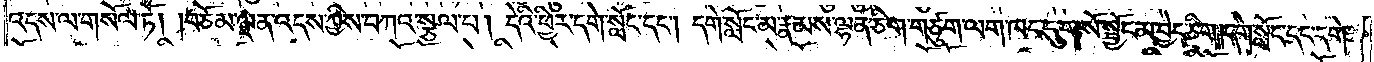འདས་ལ་གསོལ་ཏོ། །བཅོམ་ལྡན་འདས་ཀྱིས་བཀའ་སྩལ་པ། དེའི་ཕྱིར་དགེ་སློང་དང༌། དགེ་སློང་མ་རྣམས་ལྷན་ཅིག་གཙུག་ལག་ཁང་དུ་གསོ་སྦྱོང་མ་བྱེད་ཅིག །དགེ་སློང་དང་དགེ་
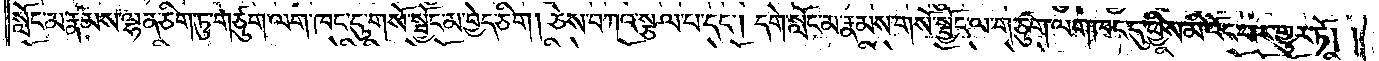སློང་མ་རྣམས་ལྷན་ཅིག་ཏུ་གཙུག་ལག་ཁང་དུ་གསོ་སྦྱོང་མ་བྱེད་ཅིག །ཅེས་བཀའ་སྩལ་པ་དང༌། དགེ་སློང་མ་རྣམས་གསོ་སྦྱོང་ལ་གཙུག་ལག་ཁང་དུ་ཕྱིས་མི་འོང་བར་གྱུར་ཏོ། །
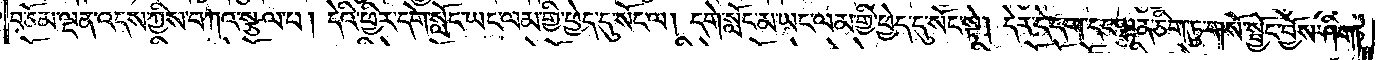བཅོམ་ལྡན་འདས་ཀྱིས་བཀའ་སྩལ་པ། དེའི་ཕྱིར་དགེ་སློང་ཡང་ལམ་གྱི་ཕྱེད་དུ་སོང་ལ། དགེ་སློང་མ་ཡང་ལམ་གྱི་ཕྱེད་དུ་སོང་སྟེ། དེར་དེ་དག་དང་ལྷན་ཅིག་ཏུ་གསོ་སྦྱོང་བྱོས་ཤིག །
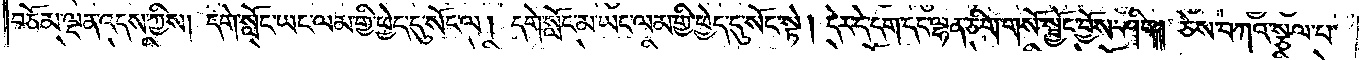བཅོམ་ལྡན་འདས་ཀྱིས། དགེ་སློང་ཡང་ལམ་གྱི་ཕྱེད་དུ་སོང་ལ། དགེ་སློང་མ་ཡང་ལམ་གྱི་ཕྱེད་དུ་སོང་སྟེ། དེར་དེ་དག་དང་ལྷན་ཅིག་གསོ་སྦྱོང་བྱོས་ཤིག །ཅེས་བཀའ་སྩལ་པ་
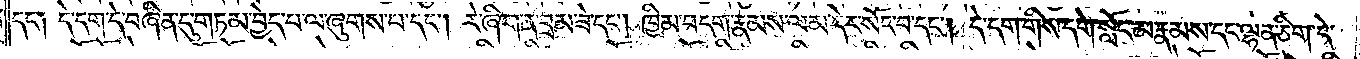དང༌། དེ་དག་དེ་བཞིན་དུ་གཏམ་བྱེད་པ་ལ་ཞུགས་པ་དང༌། རེ་ཞིག་ན་བྲམ་ཟེ་དང༌། ཁྱིམ་བདག་རྣམས་ལམ་དེར་སོང་བ་དང༌། དེ་དག་གིས་དགེ་སློང་མ་རྣམས་དང་ལྷན་ཅིག་དེ་
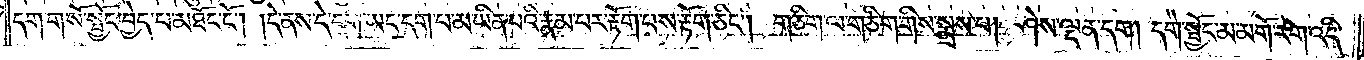དག་གསོ་སྦྱོང་བྱེད་པ་མཐོང་ངོ༌། །དེ་ནས་དེ་དག་ཡང་དག་པ་མ་ཡིན་པའི་རྣམ་པར་རྟོག་པས་རྟོག་ཅིང༌། གཅིག་ལ་གཅིག་གིས་སྨྲས་པ། ཤེས་ལྡན་དག། དགེ་སྦྱོང་མ་མགོ་རེག་འདི་
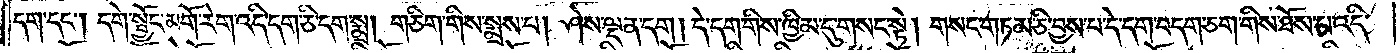དག་དང༌། དགེ་སྦྱོང་མགོ་རེག་འདི་དག་ཅི་དག་སྨྲ། གཅིག་གིས་སྨྲས་པ། ཤེས་ལྡན་དག །དེ་དག་གིས་ཁྱིམ་དུ་གསང་སྟེ། གསང་གཏམ་ཅི་བྱས་པ་དེ་དག་བདག་ཅག་གིས་ཐོས་པ་འདི་
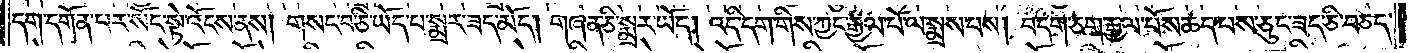དག་དགོན་པར་སོང་སྟེ་འོངས་ནས། གསང་བ་ཅི་ཡོད་པ་སྨྲར་ཟད་མོད། གཞན་ཅི་སྨྲར་ཡོད། འདི་དག་གིས་ཀྱང་རྒྱལ་པོ་ལ་སྨྲས་པས། བདག་ཅག་རྒྱལ་པོས་ཆད་པས་ཅུང་ཟད་ཅི་བཅད་
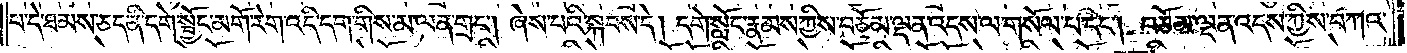པ་དེ་ཐམས་ཅད་ནི་དགེ་སྦྱོང་མགོ་རེག་འདི་དག་གིས་མ་ལན་གྲང༌། ཞེས་པའི་སྐབས་དེ། དགེ་སློང་རྣམས་ཀྱིས་བཅོམ་ལྡན་འདས་ལ་གསོལ་པ་དང༌། བཅོམ་ལྡན་འདས་ཀྱིས་བཀའ་
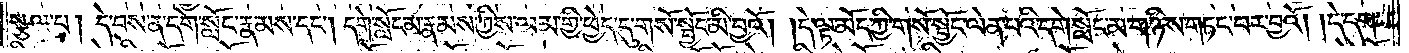སྩལ་པ། དེ་བས་ན་དགེ་སློང་རྣམས་དང༌། དགེ་སློང་རྣམས་ཀྱིས་ལམ་གྱི་ཕྱེད་དུ་གསོ་སྦྱོང་མི་བྱའོ། །དེ་ལྟ་མོད་ཀྱི་གསོ་སྦྱོང་ལེན་པའི་དགེ་སློང་མ་གཉིས་གཏང་བར་བྱའོ། །དེ་དག་
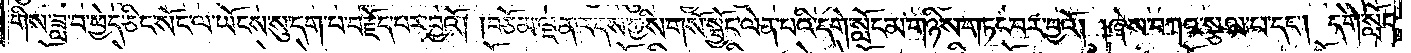གིས་ཟླ་བ་ཕྱེད་ཅིང་སོང་ལ་ཡོངས་སུ་དག་པ་བརྗོད་པར་བྱའོ། །བཅོམ་ལྡན་འདས་ཀྱིས་གསོ་སྦྱོང་ལེན་པའི་དགེ་སློང་མ་གཉིས་གཏང་བར་བྱའོ། །ཞེས་བཀའ་སྩལ་པ་དང༌། དགེ་སློང་
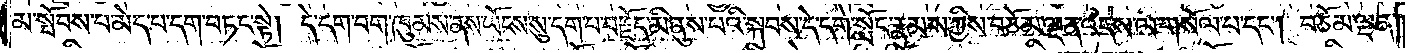མ་སྤོབས་པ་མེད་པ་དག་བཏང་སྟེ། དེ་དག་བག་ཁུམས་ནས་ཡོངས་སུ་དག་པ་བརྗོད་མི་ནུས་པའི་སྐབས་དེ་དགེ་སློང་རྣམས་ཀྱིས་བཅོམ་ལྡན་འདས་ལ་གསོལ་པ་དང༌། བཅོམ་ལྡན་
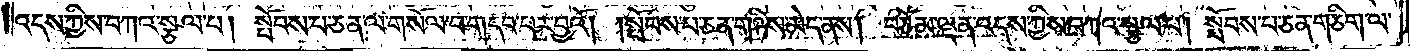འདས་ཀྱིས་བཀའ་སྩལ་པ། སྤོབས་པ་ཅན་ལ་གསོལ་བ་གདབ་པར་བྱའོ། །སྤོབས་པ་ཅན་གཉིས་མེད་ནས། བཅོམ་ལྡན་འདས་ཀྱིས་བཀའ་སྩལ་པ། སྤོབས་པ་ཅན་གཅིག་ལ་
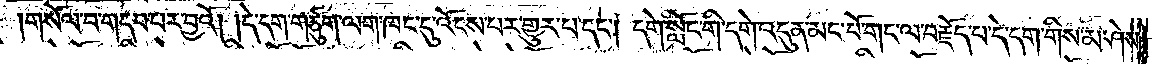གསོལ་བ་གདབ་པར་བྱའོ། །དེ་དག་གཙུག་ལག་ཁང་དུ་འོངས་པར་གྱུར་པ་དང༌། དགེ་སློང་གི་དགེ་འདུན་མང་པོ་གང་ལ་བརྗོད་པ་དེ་དག་གིས་མ་ཤེས་
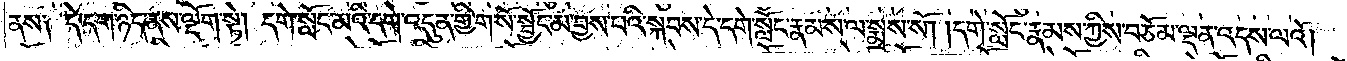ནས། དེ་དག་ཉིད་ནས་ལྡོག་སྟེ། དགེ་སློང་མའི་དགེ་འདུན་གྱི་གསོ་སྦྱོང་མ་བྱས་པའི་སྐབས་དེ་དགེ་སློང་རྣམས་ལ་སྨྲས་སོ། །དགེ་སློང་རྣམས་ཀྱིས་བཅོམ་ལྡན་འདས་ལའོ། །
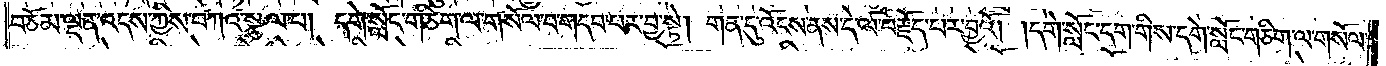བཅོམ་ལྡན་འདས་ཀྱིས་བཀའ་སྩལ་པ། དགེ་སློང་གཅིག་ལ་གསོལ་བ་གདབ་པར་བྱ་སྟེ། གན་དུ་འོངས་ནས་དེ་ལ་བརྗོད་པར་བྱའོ། །དགེ་སློང་དག་གིས་དགེ་སློང་གཅིག་ལ་གསོལ་
